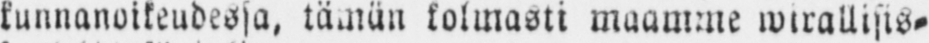kunnanoikeudessa, tämän kolmasti maamme wirallisis-
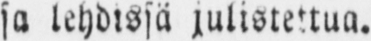sa lehdissä julistettua.
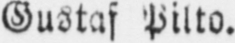Gustaf Pilto.
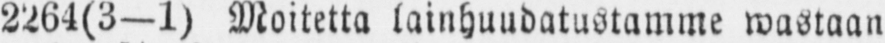2264(3—1) Moitetta lainhuudatustamme wastaan
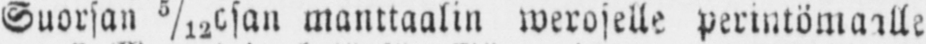Suorsan 5/12 manttaalin werojelle perintömaalle
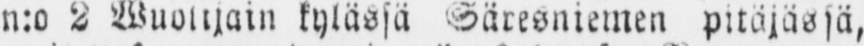n:o 2 Wuoltjain kylässä Säresniemen pitäjässä, il-
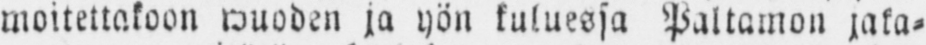moitettakoon wuoden ja yön kuluessa Paltamon jaka-
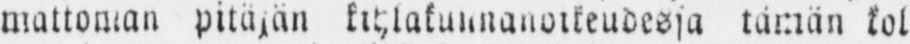mattoman pitäjän kihlakunnanoikeudessa tämän kol
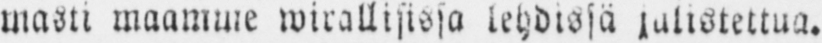masti maamme wirallisissa lehdissä julistettua.
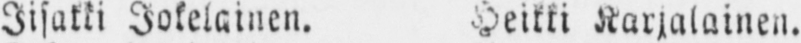Iisakki Jokelainen. Heikki Karjalainen.
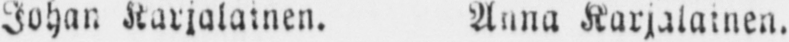Johan Karjalainen. Anna Karjalainen.
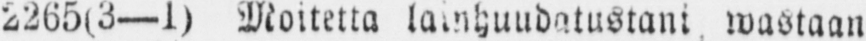2265(3 —1) Moitetta lainhuudatustani wastaan
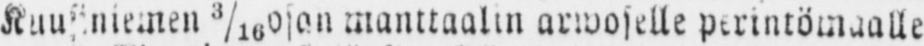Kuusiniemen 3/16 osan manttaalin arwoselle perintömaalle
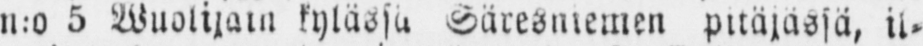n:o 5 Wuolijain kylässä Säresniemen pitäjässä, il-
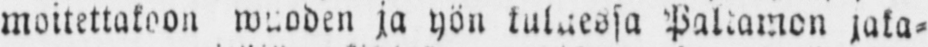moitettakoon wuoden ja yön kuluessa Paltamon jaka-
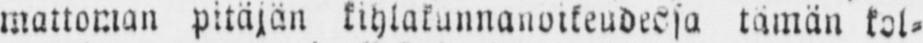mattoman pitäjän kihlakunnanoikeudessa tämän kol-
